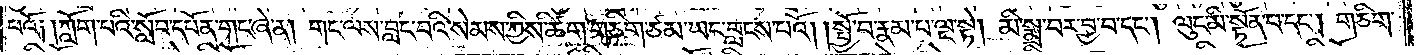པའོ༑ ༑ཀློག་པའི་སློབ་དཔོན་གང་ཞེ་ན། གང་ལས་བླང་བའི་སེམས་ཀྱིས་ཚིག་གཅིག་ཙམ་ཡང་བླངས་པའོ། །སྤྱོ་བ་རྣམ་པ་ལྔ་སྟེ། མི་སྨྲ་བར་བྱ་བ་དང༌། ལུང་མི་སྟོན་པ་དང༌། གཅིག་
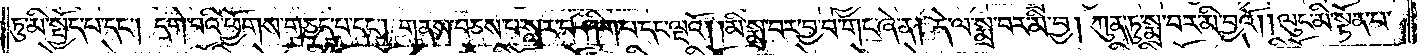ཏུ་མི་སྤྱོད་པ་དང༌། དགེ་བའི་ཕྱོགས་གཅད་པ་དང༌། གནས་བཅས་པ་སླར་བཤིག་པ་དང་ལྔའོ། །མི་སྨྲ་བར་བྱ་བ་གང་ཞེ་ན། དེ་ལ་སྨྲ་བར་མི་བྱ། ཀུན་ཏུ་སྨྲ་བར་མི་བྱའོ། །ལུང་མི་སྟོན་པ་
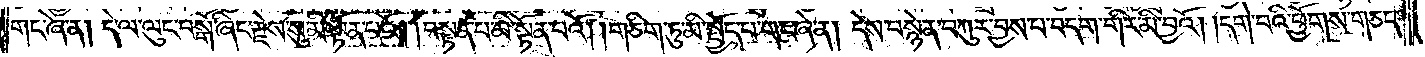གང་ཞེ་ན། དེ་ལ་ལུང་བསྒོ་ཞིང་རྗེས་སུ་མི་སྟོན་པའོ། །བསྟན་པ་མི་སྟོན་པའོ། །གཅིག་ཏུ་མི་སྤྱོད་པ་གང་ཞེ་ན། དེས་བསྙེན་བཀུར་བྱས་པ་བདག་གིར་མི་བྱའོ། །དགེ་བའི་ཕྱོགས་གཅད་
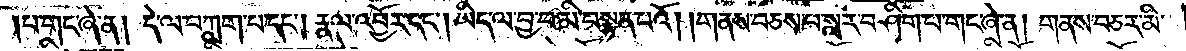པ་གང་ཞེ་ན། དེ་ལ་བཀླག་པ་དང༌། རྣལ་འབྱོར་དང༌། ཡིད་ལ་བྱ་བ་མི་བསྟན་པའོ། །གནས་བཅས་པ་སླར་བཤིག་པ་གང་ཞེ་ན། གནས་བཅར་མི་
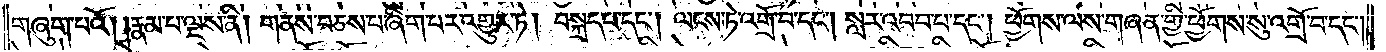གཞུག་པའོ། །རྣམ་པ་ལྔས་ནི། གནས་བཅས་པ་ཞིག་པར་འགྱུར་ཏེ། བསྐྲད་པ་དང༌། ལངས་ཏེ་འགྲོ་བ་དང༌། སླར་འབབ་པ་དང༌། ཕྱོགས་ལས་གཞན་གྱི་ཕྱོགས་སུ་འགྲོ་བ་དང༌།
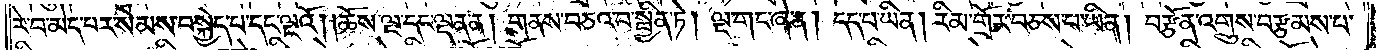རེ་བ་མེད་པར་སེམས་བསྐྱེད་པ་དང་ལྔའོ། །ཆོས་ལྔ་དང་ལྡན་ན། གནས་བཅའ་བ་སྦྱིན་ཏེ། ལྔ་གང་ཞེ་ན། དད་པ་ཡིན། རིམ་གྲོར་བཅས་པ་ཡིན། བརྩོན་འགྲུས་བརྩམས་པ་
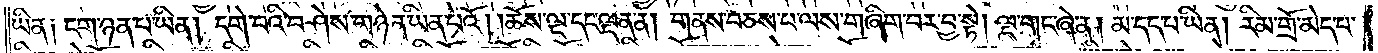ཡིན༑ ངག་ཉན་པ་ཡིན། དགེ་བའི་བཤེས་གཉེན་ཡིན་པའོ། །ཆོས་ལྔ་དང་ལྡན་ན། གནས་བཅས་པ་ལས་གཞིག་བར་བྱ་སྟེ། ལྔ་གང་ཞེ་ན། མ་དད་པ་ཡིན། རིམ་གྲོ་མེད་པ་
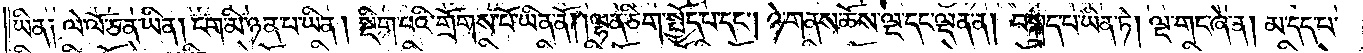ཡིན༑ ལེ་ལོ་ཅན་ཡིན། ངག་མི་ཉན་པ་ཡིན། སྡིག་པའི་གྲོགས་པོ་ཡིན་ནོ། །ལྷན་ཅིག་སྤྱོད་པ་དང༌། ཉེ་གནས་ཆོས་ལྔ་དང་ལྡན་ན། བསྐྲད་པ་ཡིན་ཏེ། ལྔ་གང་ཞེ་ན། མ་དད་པ་
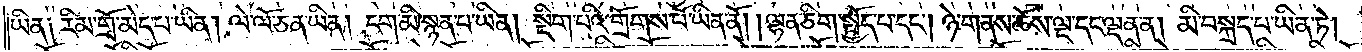ཡིན༑ རིམ་གྲོ་མེད་པ་ཡིན། ལེ་ལོ་ཅན་ཡིན། ངག་མི་སྙན་པ་ཡིན། སྡིག་པའི་གྲོགས་པོ་ཡིན་ནོ། །ལྷན་ཅིག་སྤྱོད་པ་དང༌། ཉེ་གནས་ཆོས་ལྔ་དང་ལྡན་ན། མི་བསྐྲད་པ་ཡིན་ཏེ།
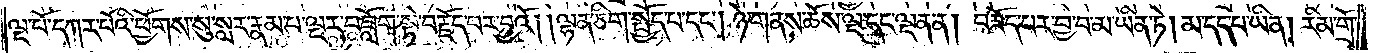ལྔ་པོ་དཀར་པོའི་ཕྱོགས་སུ་སླར་རྣམ་པ་ལྔར་བཟློག་སྟེ་བརྗོད་པར་བྱའོ། །ལྷན་ཅིག་སྤྱོད་པ་དང༌། ཉེ་གནས་ཆོས་ལྔ་དང་ལྡན་ན། བཟོད་པར་བྱ་བ་མ་ཡིན་ཏེ། མ་དད་པ་ཡིན། རིམ་གྲོ་
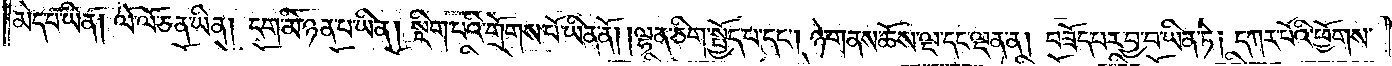མེད་པ་ཡིན། ལེ་ལོ་ཅན་ཡིན། ངག་མི་ཉན་པ་ཡིན། སྡིག་པའི་གྲོགས་པོ་ཡིན་ནོ། །ལྷན་ཅིག་སྤྱོད་པ་དང༌། ཉེ་གནས་ཆོས་ལྔ་དང་ལྡ་ན། བཟོད་པར་བྱ་བ་ཡིན་ཏེ། དཀར་པོའི་ཕྱོགས་
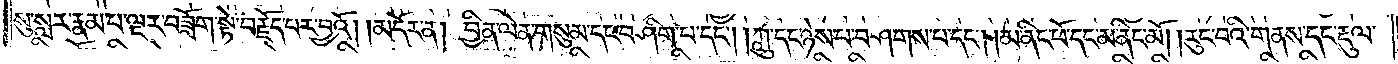སུ་སླར་རྣམ་པ་ལྔར་བཟློག་སྟེ་བརྗོད་པར་བྱའོ། །མདོར་ན། བྱིན་ལེན་གསུམ་དང་བཤིག་པ་དང༌། །ཀླུ་དང་ཉེས་པ་བཤགས་པ་དང༌། །མ་ནིང་ཕོ་དང་མ་ནིང་མོ། །རུང་བའི་གནས་དང་རྡུལ་
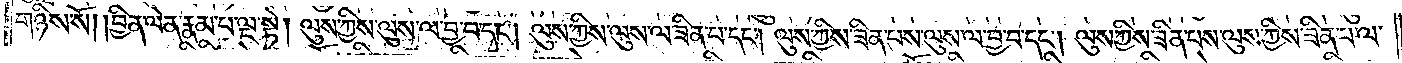གཉིས་སོ། །བྱིན་ལེན་རྣམ་པ་ལྔ་སྟེ། ལུས་ཀྱིས་ལུས་ལ་བྱ་བ་དང༌། ལུས་ཀྱིས་ལུས་ལ་ཟིན་པ་དང༌། ལུས་ཀྱིས་ཟིན་པས་ལུས་ལ་བྱ་བ་དང༌། ལུས་ཀྱིས་ཟིན་པས་ལུས་ཀྱིས་ཟིན་པ་ལ་
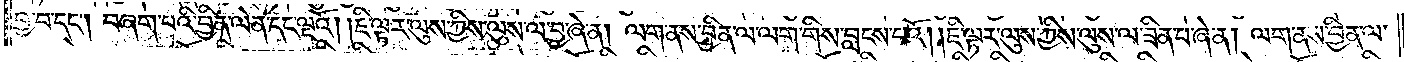བྱ་བ་དང༌། བཞག་པའི་བྱིན་ལེན་དང་ལྔའོ། །ཇི་ལྟར་ལུས་ཀྱིས་ལུས་ལ་བྱ་ཞེ་ན། ལག་ནས་བྱིན་ལ་ལག་གིས་བླངས་པའོ། །ཇི་ལྟར་ལུས་ཀྱིས་ལུས་ལ་ཟིན་པ་ཞེ་ན། ལག་ནས་བྱིན་ལ་
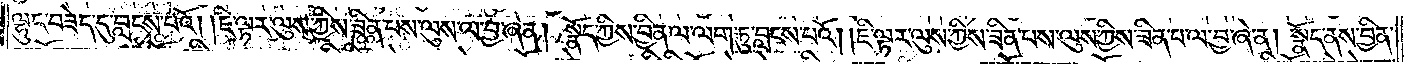ལྷུང་བཟེད་དུ་བླངས་པའོ། །ཇི་ལྟར་ལུས་ཀྱིས་ཟིན་པས་ལུས་ལ་བྱ་ཞེ་ན། སྣོད་ཀྱིས་བྱིན་ལ་ལག་ཏུ་བླངས་པའོ། །ཇི་ལྟར་ལུས་ཀྱིས་ཟིན་པས་ལུས་ཀྱིས་ཟིན་པ་ལ་བྱ་ཞེ་ན། སྣོད་ནས་བྱིན་
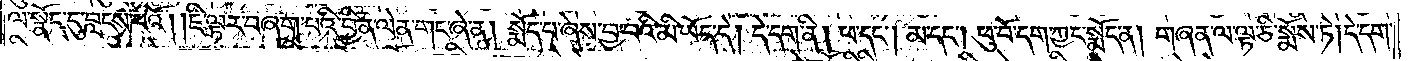ལ་སྣོད་དུ་བླངས་པའོ། །ཇི་ལྟར་བཞག་པའི་བྱིན་ལེན་གང་ཞེ་ན། སྨོད་པ་ཞེས་བྱ་བའི་མི་ཡོད་དེ། དེ་དག་ནི། ཕ་དང༌། མ་དང༌། ཕུ་བོ་དག་ཀྱང་སྨོད་ན། གཞན་ལ་ལྟ་ཅི་སྨོས་ཏེ། དེ་དག་
